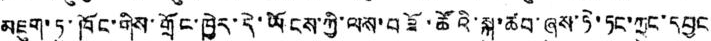མཇུག་ཏུ་ཁོང་གིས་གྲོང་ཁྱེར་དེ་ཡོངས་ཀྱི་ལས་བཟོ་ཚོའི་སྐུ་ཚབ་ཞུས་ཏེ་ཏང་ཀྲུང་དབྱང་
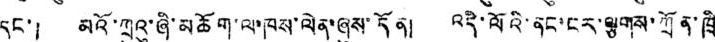དང་། མའོ་ཀྲུའུ་ཞི་མཆོག་ལ་ཁས་ལེན་ཞུས་དོན། འདི་ལོའི་ནང་ངར་ལྕགས་ཀྲོན་ཁྲི
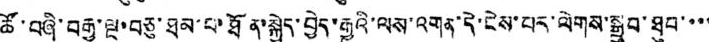ཚོ་བཞི་བརྒྱ་ལྔ་བཅུ་ཐམ་པ་ཐོན་སྐྱེད་བྱེད་རྒྱུའི་ལས་འགན་དེ་ངེས་པར་ལེགས་སྒྲུབ་ཐུབ་་་་
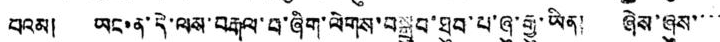པའམ། ཡང་ན་དེ་ལས་བརྒལ་བ་ཞིག་ལེགས་བསྐྲུབ་ཐུབ་པ་ཞུ་རྒྱུ་ཡིན། ཞེས་ཞུས་་་་
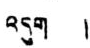འདུག །
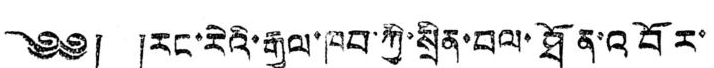༄༅། །རང་རེའི་རྒྱལ་ཁབ་ཀྱི་སྲིན་བལ་ཐོན་འབོར་
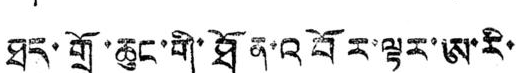ཐད་གྲོ་ཆུང་གི་ཐོན་འབོར་ལྟར་ཨ་རི་
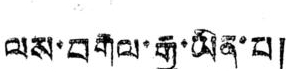ལས་བརྒལ་རྒྱུ་ཡིན་པ།
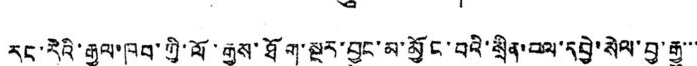རང་རེའི་རྒྱལ་ཁབ་ཀྱི་ལོ་རྒྱུས་ཐོག་སྔར་བྱུང་མ་མྱོང་བའི་སྲིན་བལ་དབྱེ་སེལ་བྱ་རྒྱུ་་་
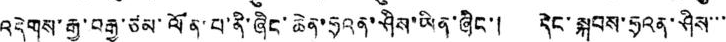འདེགས་རྒྱ་བརྒྱ་ཙམ་ལོན་པ་ནི་ཞིང་ཆེན་ཧྲའན་ཤིས་ཡིན་ཞིང་། དེང་སྐབས་ཧྲའན་ཤིས་་་
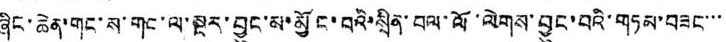ཞིང་ཆེན་གང་ས་གང་ལ་སྔར་བྱུང་མ་མྱོང་བའི་སྲིན་བལ་ལོ་ལེགས་བྱུང་བའི་གཏམ་བཟང་་་
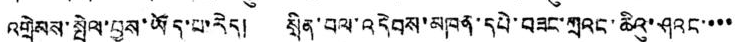འགྲེམས་སྤེལ་བྱས་ཡོད་པ་རེད། སྲིན་བལ་འདེབས་མཁན་དཔེ་བཟང་ཀྲའང་ཆིའུ་ཤའང་་་་
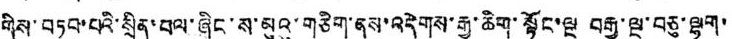གིས་བཏབ་པའི་སྲིན་བལ་ཞིང་ས་མུའུ་གཅིག་ནས་འདེགས་རྒྱ་ཆིག་སྟོང་ལྔ བརྒྱ་ལྔ་བཅུ་ལྷག་
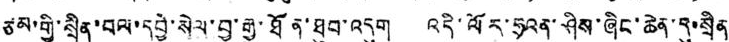ཙམ་གྱི་སྲིན་བལ་དབྱེ་སེལ་བྱ་རྒྱུ་ཐོན་ཐུབ་འདུག འདི་ལོར་ཧྲའན་ཤིས་ཞིང་ཆེན་དུ་སྲིན
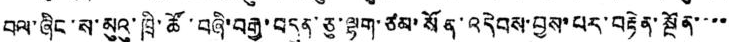བལ་ཞིང་ས་མུའུ་ཁྲི་ཚོ་བཞི་བརྒྱ་བདུན་ཅུ་ལྷག་ཙམ་སོན་འདེབས་བྱས་པར་བརྟེན་སྔོན་་་་
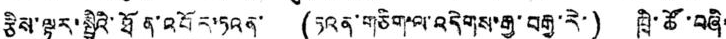རྩིས་ལྟར་སྤྱིའི་ཐོན་འབོར་ཏའན་ (ཏའན་གཅིག་ལ་འདེགས་རྒྱ་བརྒྱ་རེ་) ཁྲི་ཚོ་བཞི་
